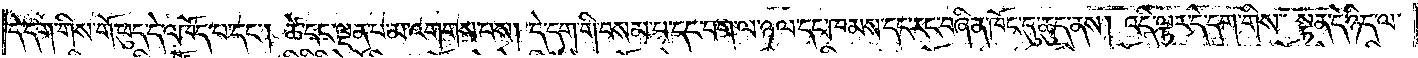དེ་དག་གིས་གོ་ཕུད་དེ་འཁོད་པ་དང༌། ཚེ་དང་ལྡན་པ་མ་འགགས་པས། དེ་དག་གི་བསམ་པ་དང་བག་ལ་ཉལ་དང་ཁམས་དང་རང་བཞིན་ཁོང་དུ་ཆུད་ནས། འདི་ལྟར་དེ་དག་གིས་སྟན་དེ་ཉིད་ལ་
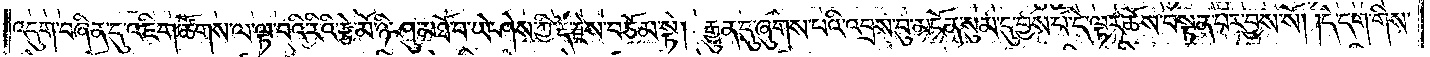འདུག་བཞིན་དུ་འཇིག་ཚོགས་ལ་ལྟ་བའི་རིའི་རྩེ་མོ་ཉི་ཤུ་མཐོ་བ་ཡེ་ཤེས་ཀྱི་རྡོ་རྗེས་བཅོམ་སྟེ། རྒྱུན་དུ་ཞུགས་པའི་འབྲས་བུ་མངོན་སུམ་དུ་བྱས་པ་དེ་ལྟར་ཆོས་བསྟན་པར་བྱས་སོ། །དེ་དག་གིས་
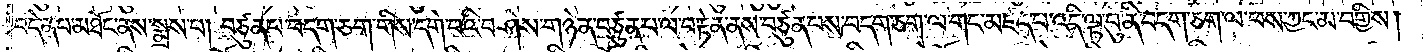བདེན་པ་མཐོང་ནས་སྨྲས་པ། བཙུན་པ་བདག་ཅག་གིས་དགེ་བའི་བཤེས་གཉེན་བཙུན་པ་ལ་བརྟེན་ནས་བཙུན་པས་བདག་ཅག་ལ་གང་མཛད་པ་འདི་ལྟ་བུ་ནི་བདག་ཅག་ལ་ཕས་ཀྱང་མ་བགྱིས།
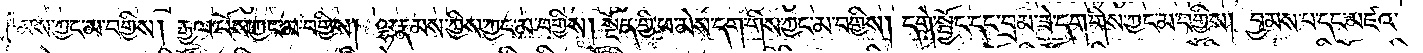མས་ཀྱང་མ་བགྱིས། རྒྱལ་པོས་ཀྱང་མ་བགྱིས། ལྷ་རྣམས་ཀྱིས་ཀྱང་མ་བགྱིས། སྔོན་གྱི་ཕ་མེས་དག་གིས་ཀྱང་མ་བགྱིས། དགེ་སྦྱོང་དང་བྲམ་ཟེ་དག་གིས་ཀྱང་མ་བགྱིས། བྱམས་པ་དང་མཛའ་
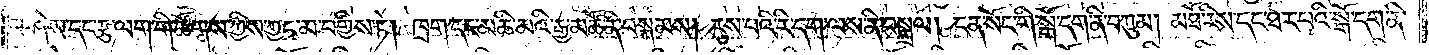བཤེས་དང་རྩ་ལག་གི་ཚོགས་ཀྱིས་ཀྱང་མ་བགྱིས་ཏེ། ཁྲག་དང་མཆི་མའི་རྒྱ་མཚོ་ནི་བསྐམས། རུས་པའི་རི་དག་ལས་ནི་བསྒྲལ། ངན་སོང་གི་སྒོ་དག་ནི་བཀུམ། མཐོ་རིས་དང་ཐར་པའི་སྒོ་དག་ནི་
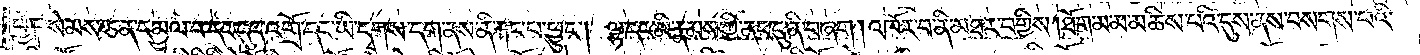ཕྱེ། སེམས་ཅན་དམྱལ་བ་དང་དུད་འགྲོ་དང་ཡི་དྭགས་དག་ནས་ནི་རྐང་པ་ཕྱུང༌། ལྷ་དང་མི་རྣམས་ཀྱི་ནང་དུ་ནི་བཞག །འཁོར་བ་ནི་མཐར་བགྱིས་།ཐོག་མ་མ་མཆིས་པའི་དུས་ནས་བསགས་པའི་
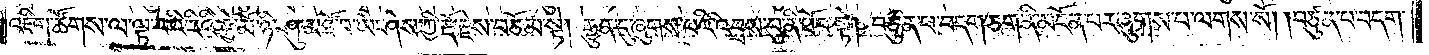འཇིག་ཚོགས་ལ་ལྟ་བའི་རིའི་རྩེ་མོ་ཉི་ཤུ་མཐོ་བ་ཡེ་ཤེས་ཀྱི་རྡོ་རྗེས་བཅོམ་སྟེ། རྒྱུན་དུ་ཞུགས་པའི་འབྲས་བུ་ནི་ཐོབ་སྟེ། བཙུན་པ་བདག་ཅག་ནི་མངོན་པར་ཞུགས་པ་ལགས་སོ། །བཙུན་པ་བདག་
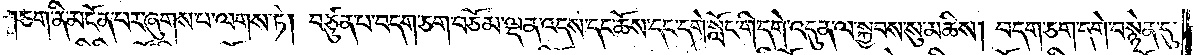ཅག་ནི་མངོན་པར་ཞུགས་པ་ལགས་ཏེ། བཙུན་པ་བདག་ཅག་བཅོམ་ལྡན་འདས་དང་ཆོས་དང་དགེ་སློང་གི་དགེ་འདུན་ལ་སྐྱབས་སུ་མཆིས། བདག་ཅག་དགེ་བསྙེན་དུ་
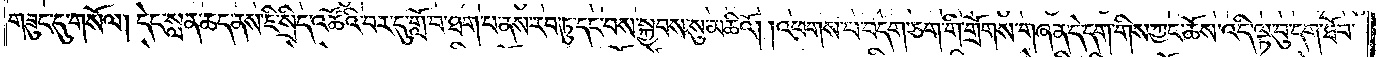གཟུང་དུ་གསོལ། དེང་སླན་ཆད་ནས་ཇི་སྲིད་འཚོའི་བར་དུ་གློ་བ་ཐག་པ་ནས་རབ་ཏུ་དང་བས་སྐྱབས་སུ་མཆིའོ། །འཕགས་པ་བདག་ཅག་གི་གྲོགས་གཞན་དེ་དག་གིས་ཀྱང་ཆོས་འདི་ལྟ་བུ་དག་ཐོབ་
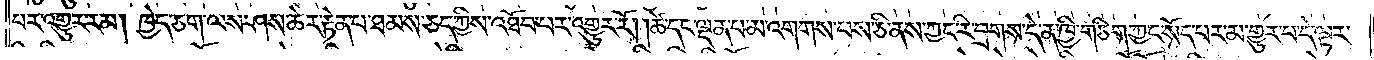པར་འགྱུར་རམ། ཁྱེད་ཅག་ལས་ཤས་ཆེར་རྟེན་པ་ཐམས་ཅད་ཀྱིས་འཐོབ་པར་འགྱུར་རོ། །ཚེ་དང་ལྡན་པ་མ་འགགས་པས་ཅི་ནས་ཀྱང་རི་བྲགས་དེ་ན་ཁྱི་གཅིག་ཀྱང་སོད་པར་མ་གྱུར་པ་དེ་ལྟར་
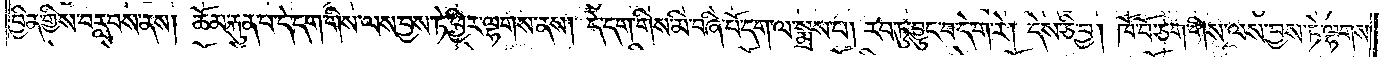བྱིན་གྱིས་བརླབས་ནས། ཆོམ་རྐུན་པ་དེ་དག་གིས་ལས་བྱས་ཏེ་ཕྱིར་ལྷགས་ནས། དེ་དག་གིས་མི་བཞི་པོ་དག་ལ་སྨྲས་པ། རབ་ཏུ་བྱུང་བ་དེ་ག་རེ། དེས་ཅི་བྱ། ཁོ་བོ་ཅག་གིས་ལས་བྱས་ཏེ་ལྷགས་
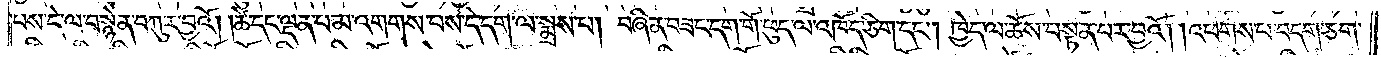པས་དེ་ལ་བསྙེན་བཀུར་བྱའོ། །ཚེ་དང་ལྡན་པ་མ་འགགས་པས་དེ་དག་ལ་སྨྲས་པ། བཞིན་བཟང་དག་གོ་ཕུད་ལ་འཁོད་ཅིག་དང༌། ཁྱེད་ལ་ཆོས་བསྟན་པར་བྱའོ། །འཕགས་པ་བདག་ཅག་
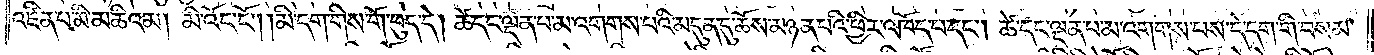འཛིན་པ་མི་མཆིའམ། མི་འོང་ངོ༌། །མི་དག་གིས་གོ་ཕུད་དེ། ཚེ་དང་ལྡན་པ་མ་འགགས་པའི་མདུན་དུ་ཆོས་མཉན་པའི་ཕྱིར་འཁོད་པ་དང༌། ཚེ་དང་ལྡན་པ་མ་འགགས་པས་དེ་དག་གི་བསམ་
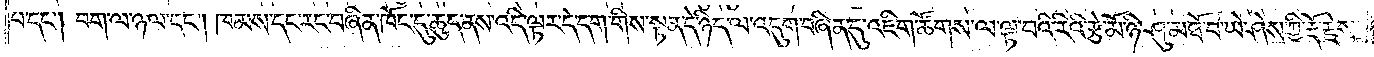པ་དང༌། བག་ལ་ཉལ་དང༌། ཁམས་དང་རང་བཞིན་ཁོང་དུ་ཆུད་ནས་འདི་ལྟར་དེ་དག་གིས་སྟན་དེ་ཉིད་ལ་འདུག་བཞིན་དུ་འཇིག་ཚོགས་ལ་ལྟ་བའི་རིའི་རྩེ་མོ་ཉི་ཤུ་མཐོ་བ་ཡེ་ཤེས་ཀྱི་རྡོ་རྗེས་
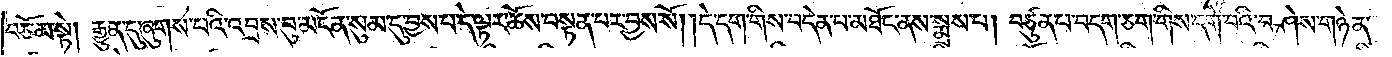བཅོམ་སྟེ། རྒྱུན་དུ་ཞུགས་པའི་འབྲས་བུ་མངོན་སུམ་དུ་བྱས་པ་དེ་ལྟར་ཆོས་བསྟན་པར་བྱས་སོ། །དེ་དག་གིས་བདེན་པ་མཐོང་ནས་སྨྲས་པ། བཙུན་པ་བདག་ཅག་གིས་དགེ་བའི་བཤེས་གཉེན་
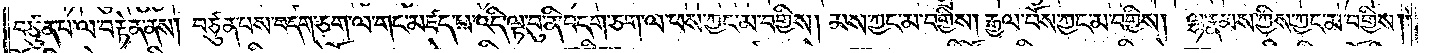བཙུན་པ་ལ་བརྟེན་ནས། བཙུན་པས་བདག་ཅག་ལ་གང་མཛད་པ་འདི་ལྟ་བུ་ནི་བདག་ཅག་ལ་ཕས་ཀྱང་མ་བགྱིས། མས་ཀྱང་མ་བགྱིས། རྒྱལ་པོས་ཀྱང་མ་བགྱིས། ལྷ་རྣམས་ཀྱིས་ཀྱང་མ་བགྱིས།
